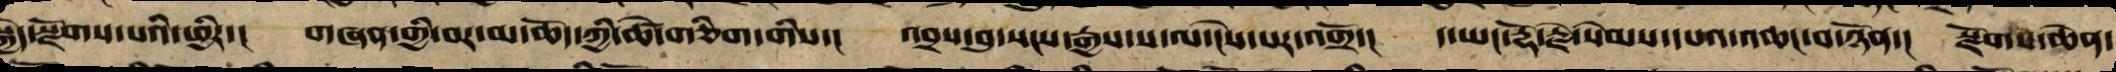སྐྱེད་སྫོགས་པའི་ཕྱིར་། གཞན་གྱི་བར་མ་ཆོད་ཀྱི་ཚེ་གཅིག་གི་། འབྲས་བུ་སངས་རྒྱས་ས་ལ་ངེས་པར་འགྲོ་། ད་ཡང་རྡོ་རྗེ་སེམས་དཔའ་འཆང་བ་ཉོན་། སྫོགས་ཆེན་
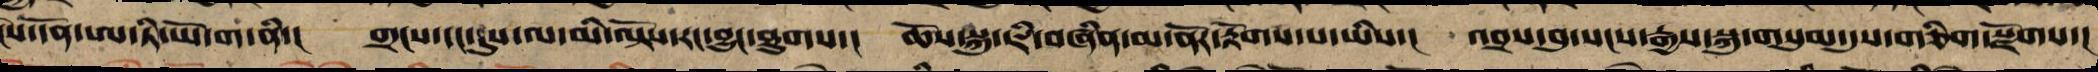ངེས་དོན་ཨ་ཏི་ཡོ་ག་ནི་། གྲངས་དང་དུས་ལ་མི་ལྟོས་རང་བྱུང་ཐུགས་། ཆོས་སྐུ་ཇི་བཞིན་མ་ནོར་རྟོགས་པ་ཡིས་། འབྲས་བུ་སངས་རྒྱས་སྐུ་གསུམ་དུས་གཅིག་སྫོགས་།
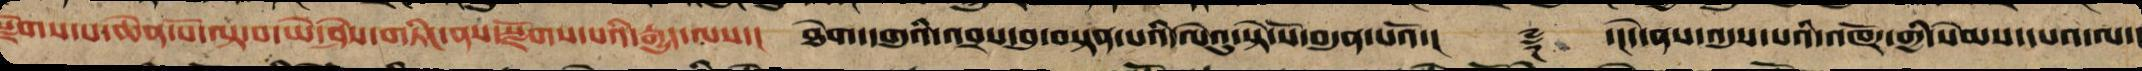སྫོགས་པ་ཆེན་པོ་ལྟ་བ་ཡེ་ཤེས་གཏིང་ནས་སྫོགས་པའི་རྒྱུད་ལས་། ཐེག་དགུའི་འབྲས་བུ་བསྟན་པའི་ལེའུ་སྟེ་སོ་བདུན་པའོ་།། ༈ ་།དེ་ནས་འདུས་པའི་འཁོར་གྱི་སེམས་དཔའ་ལ་།
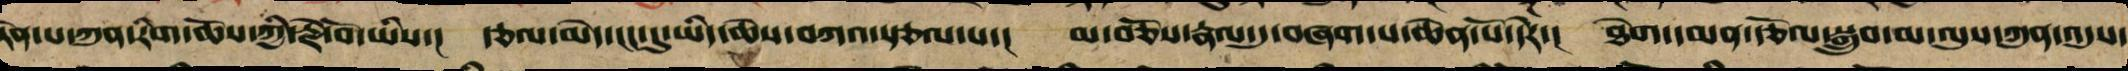སྟོན་པ་ཀུན་རིག་ཆོས་ཀྱི་རྗེ་བོ་ཡིས་། རྩལ་མེད་ངང་དུ་ཡིད་ཆེས་བཀའ་སྩལ་པ་། མ་བཅོས་རྣལ་དུ་བཞག་པ་ཆེན་པོ་དེར་། ཐེག་དམན་རྩོལ་བསྒྲུབ་མ་ལུས་ཀུན་འདུས་
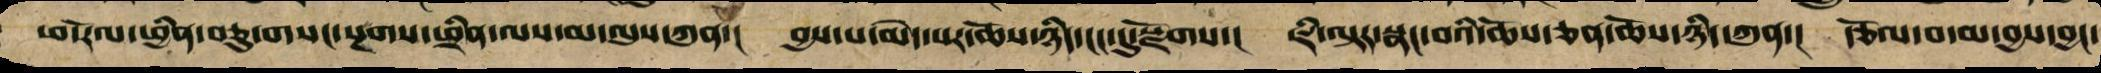ཕ་རོལ་ཕྱིན་བཅུ་གསང་སྔགས་ཕྲིན་ལས་མ་ལུས་ཀུན་། བྱས་པ་མེད་པར་ཆོས་ཉིད་ངང་དུ་སྫོགས་། ཇི་ལྟར་སྣང་བའི་ཆོས་ཅན་ཆོས་ཉིད་ཀུན་། རྩོལ་བ་མ་བྱས་བྱང་
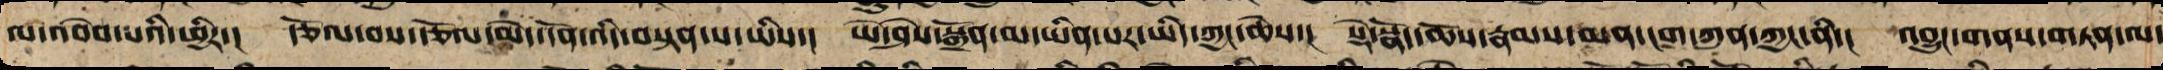ལ་འབེབས་པའི་ཕྱིར་། རྩོལ་བས་རྩོལ་མེད་དོན་འདི་བསྟན་པ་ཡིས་། ཡེ་ཤེས་སྒྲོན་མ་ཡིན་པར་ཡིད་ཀྱང་ཆེས་། སྡེ་སྣོད་ཆོས་རྣམས་མན་ངག་ཀུན་ཀྱང་ནི་། འབྱུང་གནས་གཏན་ལ་
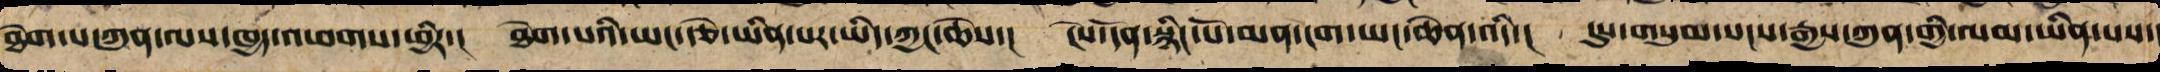ཐེག་པ་ཀུན་ལས་ཁྱད་འཕགས་ཕྱིར་། ཐེག་པའི་ཡང་རྩེ་ཡིན་པར་ཡིད་ཀྱང་ཆེས་། ངེས་དོན་སྙིང་པོ་མན་ངག་གསང་ཆེན་འདི་། དུས་གསུམ་སངས་རྒྱས་ཀུན་གྱི་ལམ་ཡིན་པས་།
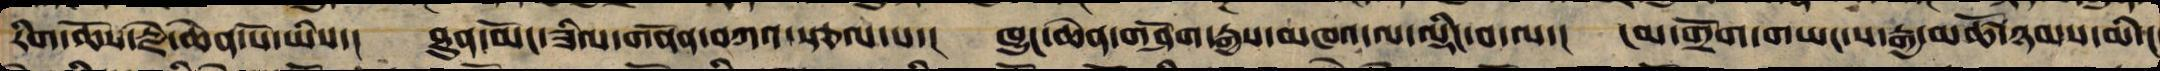རིག་ཆོས་རྗེ་ཆེན་པོ་ཡིས་། ཐུན་མོང་ཆོས་རྣམས་ཟིལ་གནོན་བཀའ་སྩལ་པ་། ཁྱུང་ཆེན་གཤོག་རྒྱས་མཁའ་ལ་ལྡིང་བ་ལ་། ངམ་གྲོག་གཡང་ས་རྒྱ་མཚོར་ཉམས་མི་ང
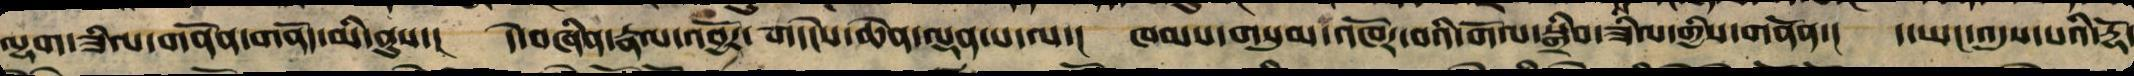ལྷག་ཟིལ་གནོན་གནོད་མི་ནུས་། དེ་བཞིན་རྣལ་འབྱོར་གདེང་ཆེན་ལྡན་པ་ཡིས་། ཁམས་གསུམ་འཁོར་བའི་གོལ་སྒྲིབ་ཟིལ་གྱིས་གནོན་། ད་ཡང་འདུས་པའི་རྡོ་
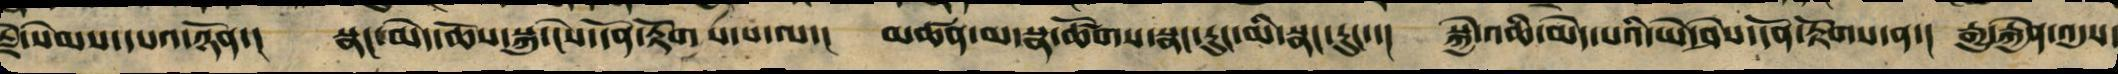རྗེ་སེམས་དཔའ་ཉོན་། སྣང་མེད་ཆོས་སྐུ་ངེས་དོན་རྟོགས་པ་ལ་། མཚན་མ་སྣ་ཚོགས་སྣང་རུང་མི་སྣང་རུང་་། སྐྱེ་འཆི་མེད་པའི་ཡེ་ཤེས་དོན་རྟོགས་ན་། རྒྱུ་རྐྱེན་འདུས་
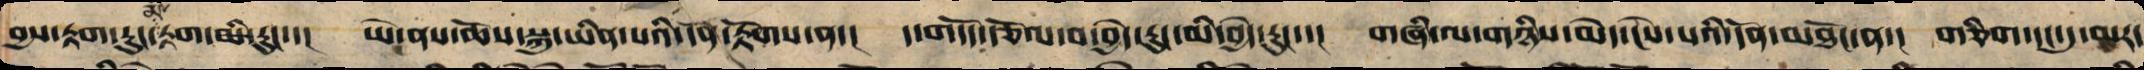བྱས་རྟག་རུང་མི་རྟག་མི་རུང་་། ཡེ་ནས་ཆོས་སྐུ་ཡིན་པའི་དོན་རྟོགས་ན་། ད་གདོད་རྩོལ་བ་བྱེད་རུང་མི་བྱེད་རུང་་། གཞི་ལ་གཉིས་མེད་ངེས་པའི་དོན་མཐོང་ན་། གཅིག་དང་དུ་མར་
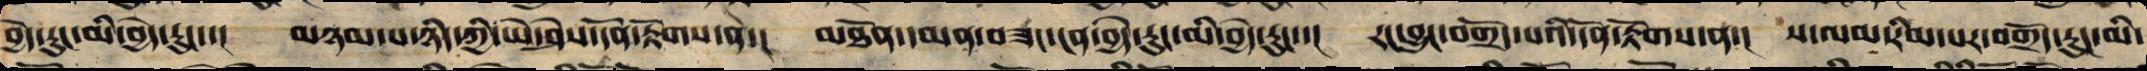བྱེད་རུང་མི་བྱེད་རུང་་། མཉམ་པ་ཉིད་ཀྱི་ཡེ་ཤེས་དོན་རྟོགས་ན་། མཐོ་དམན་བཟང་ངན་བྱེད་རུང་མི་བྱེད་རུང་་། རང་བྱུང་བགྲོད་པ་མེད་པའི་དོན་རྟོགས་ན་། ས་ལམ་རིམ་པར་བགྲོད་རུང་མི་
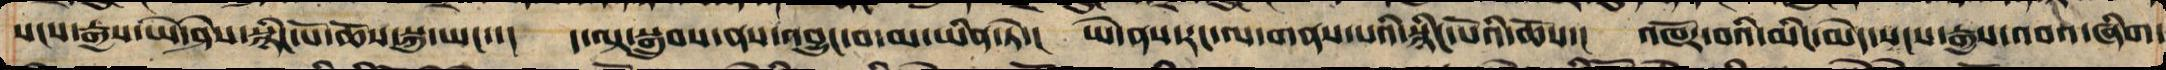སངས་རྒྱས་ཡེ་ཤེས་སྙིང་པོ་ཆོས་སྐུ་ཡང་་། ད་ལྟ་བསྒྲུབས་ནས་འབྱུང་བ་མ་ཡིན་ཏེ་། ཡེ་ནས་རང་ལ་གནས་པའི་སྙིང་པོའི་ཆོས་། འཁོར་བའི་མིང་མེད་སངས་རྒྱས་འབའ་ཞིག་
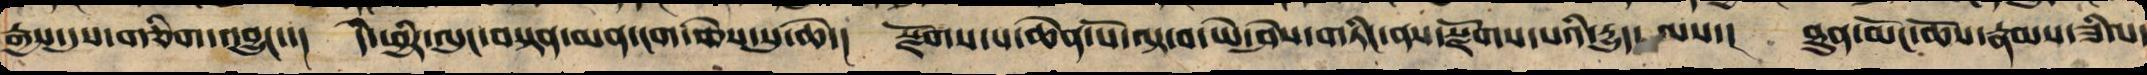རྒྱས་དུས་གཅིག་བྱུང་་། དེ་ཕྱིར་ལུང་ལྡན་མན་ངག་ཆེས་སུ་ཆེ་། སྫོགས་པ་ཆེན་པོ་ལྟ་བ་ཡེ་ཤེས་གཏིང་ནས་སྫོགས་པའི་རྒྱུད་ལས་། ཐུན་མོང་ཆོས་རྣམས་ཟིལ་
